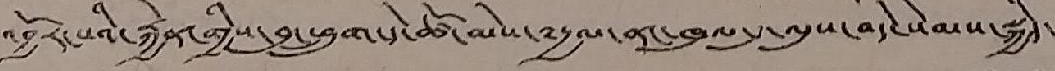འབྱོར་པའི་རྐྱེན་གྱིས་བུ་ཕྲུག་དེ་ཚོ་མེས་༸རྒྱལ་ནང་ཁུལ་དུ་ལུས་བདེ་སེམས་སྐྱིད་
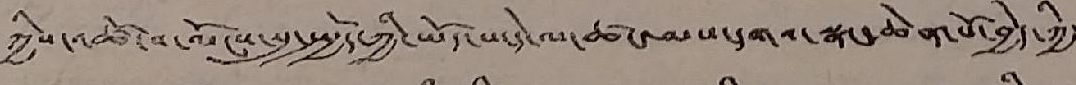ཀྱིས་འཚོ་བ་ལོངས་སུ་སྤྱོད་ཀྱི་ཡོད་པ་དེ་ལ་ཚང་མས་དགའ་སྣང་ཆེན་པོ་བྱེད་ཀྱི་
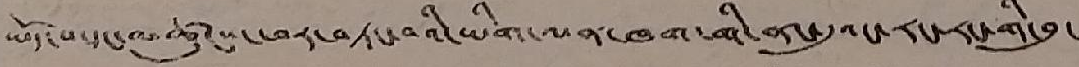ཡོད་པ་དང་མཚུངས་ཕར་བཏང་བའི་ཡིག་ལན་ཁག་གི་ནང་དུའང་རང་རང་གི་བུ་
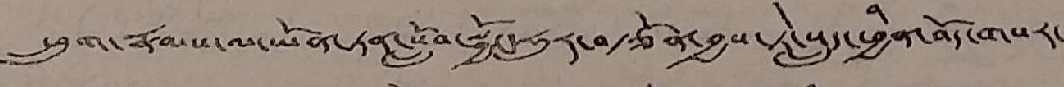ཕྲུག་རྣམས་ལ་ཡོན་ཏན་སློབ་སྦྱོང་ཧུར་བརྩོན་བྱས་ཏེ་སླད་ཕྱིན་བོད་གསར་
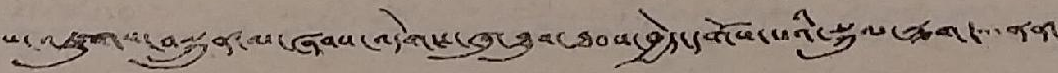པ་འཛུགས་བསྐྲུན་མ་ཞབས་འདེགས་ཞུ་ཐུབ་ཐབས་བྱེད་དགོས་པའི་སྐུལ་ལྕག་་་་ནན་
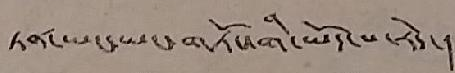ཏན་ཡང་ཡང་གཏོང་གི་ཡོད་པ་རེད་།
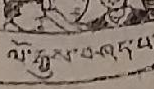ལོ་རྒྱུས་བཤད་པ་
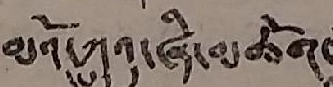མའོ་ཀྲུའུ་ཞི་མཆོག་
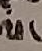ལ་
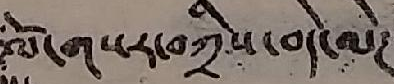ལོ་གསར་བཀྲིས་བདེ་ལེཊ་
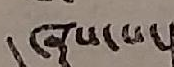ཞུས་པ་།
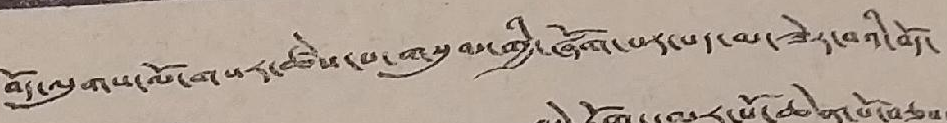བོད་ལུགས་ལོ་གསར་ཚེས་པ་གསུམ་གྱི་ཞོག་པར་པད་མ་ཟེར་བའི་བོད་
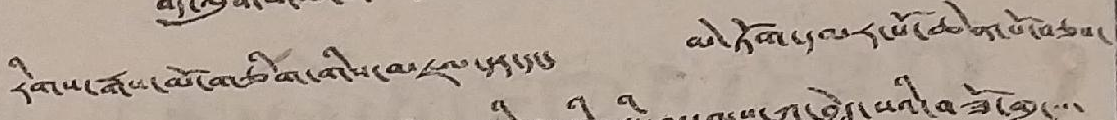རིགས་རྒས་མོ་གཅིག་གིས་མཇལ་དར་དང་ མེ་ཏོག་དམར་པོ་ཆེན་པོ་བཅས་
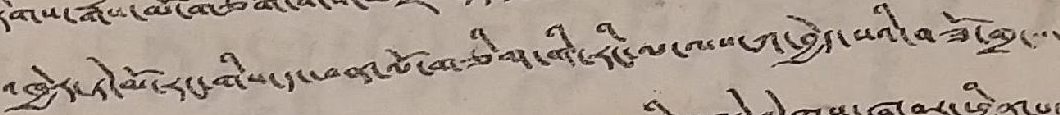འཁྱེར་ཏེ་མོ་རང་གིས་ད་ཕན་ལོ་གཅིག་གི་རིང་ལ་ལས་ཀ་བྱེད་པའི་བཟོ་གྲ་་་་
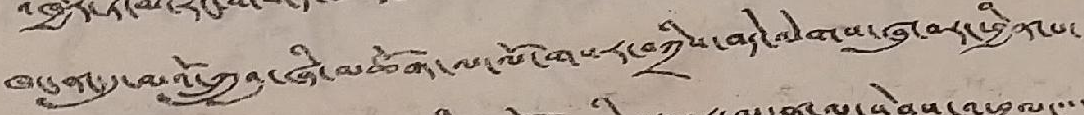ཁང་ནང་དུ་མའོ་ཀྲུའུ་ཞི་མཆོག་ལ་ལོ་གསར་བཀྲིས་བདེ་ལེགས་ཞུ་བར་ཕྱིན་པ་
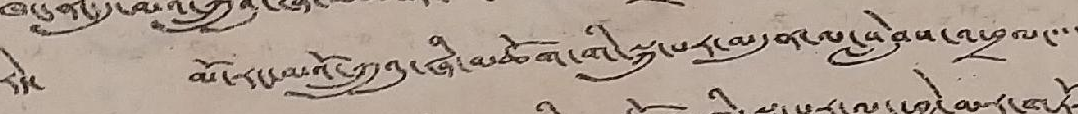རེད་ མོ་རང་མའོ་ཀྲུའུ་ཞི་མཆོག་གི་སྐུ་པར་མདུན་ལ་སླེབས་འཕྲལ་་་་
